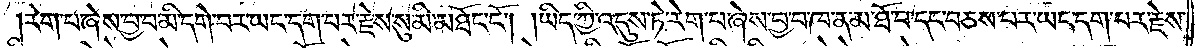རེག་པ་ཞེས་བྱ་བ་མི་དགེ་བར་ཡང་དག་པར་རྗེས་སུ་མི་མཐོང་ངོ༌། །ཡིད་ཀྱི་འདུས་ཏེ་རེག་པ་ཞེས་བྱ་བ་ཁ་ན་མ་ཐོ་བ་དང་བཅས་པར་ཡང་དག་པར་རྗེས་
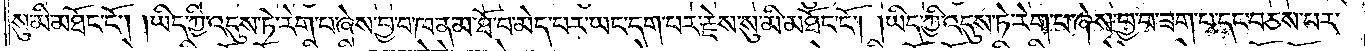སུ་མི་མཐོང་ངོ༌། །ཡིད་ཀྱི་འདུས་ཏེ་རེག་པ་ཞེས་བྱ་བ་ཁ་ན་མ་ཐོ་བ་མེད་པར་ཡང་དག་པར་རྗེས་སུ་མི་མཐོང་ངོ༌། །ཡིད་ཀྱི་འདུས་ཏེ་རེག་པ་ཞེས་བྱ་བ་ཟག་པ་དང་བཅས་པར་
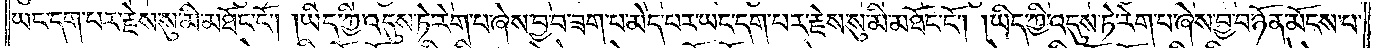ཡང་དག་པར་རྗེས་སུ་མི་མཐོང་ངོ༌། །ཡིད་ཀྱི་འདུས་ཏེ་རེག་པ་ཞེས་བྱ་བ་ཟག་པ་མེད་པར་ཡང་དག་པར་རྗེས་སུ་མི་མཐོང་ངོ༌། །ཡིད་ཀྱི་འདུས་ཏེ་རེག་པ་ཞེས་བྱ་བ་ཉོན་མོངས་པ་
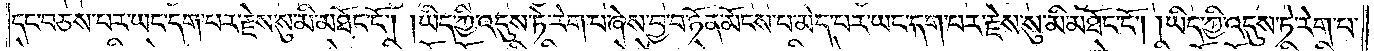དང་བཅས་པར་ཡང་དག་པར་རྗེས་སུ་མི་མཐོང་ངོ༌། །ཡིད་ཀྱི་འདུས་ཏེ་རེག་པ་ཞེས་བྱ་བ་ཉོན་མོངས་པ་མེད་པར་ཡང་དག་པར་རྗེས་སུ་མི་མཐོང་ངོ༌། །ཡིད་ཀྱི་འདུས་ཏེ་རེག་པ་
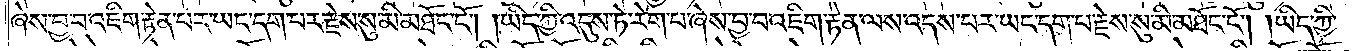ཞེས་བྱ་བ་འཇིག་རྟེན་པར་ཡང་དག་པར་རྗེས་སུ་མི་མཐོང་ངོ༌། །ཡིད་ཀྱི་འདུས་ཏེ་རེག་པ་ཞེས་བྱ་བ་འཇིག་རྟེན་ལས་འདས་པར་ཡང་དག་པ་རྗེས་སུ་མི་མཐོང་ངོ༌། །ཡིད་ཀྱི་
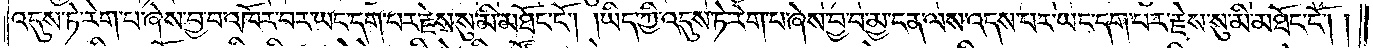འདུས་ཏེ་རེག་པ་ཞེས་བྱ་བ་འཁོར་བར་ཡང་དག་པར་རྗེས་སུ་མི་མཐོང་ངོ༌། །ཡིད་ཀྱི་འདུས་ཏེ་རེག་པ་ཞེས་བྱ་བ་མྱ་ངན་ལས་འདས་པར་ཡང་དག་པར་རྗེས་སུ་མི་མཐོང་ངོ༌། །
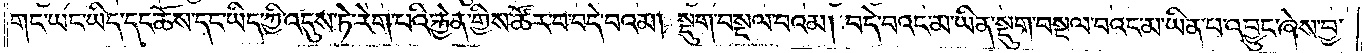གང་ཡང་ཡིད་དང་ཆོས་དང་ཡིད་ཀྱི་འདུས་ཏེ་རེག་པའི་རྐྱེན་གྱིས་ཚོར་བ་བདེ་བའམ། སྡུག་བསྔལ་བའམ། བདེ་བའང་མ་ཡིན་སྡུག་བསྔལ་བའང་མ་ཡིན་པ་འབྱུང་ཞེས་བྱ་
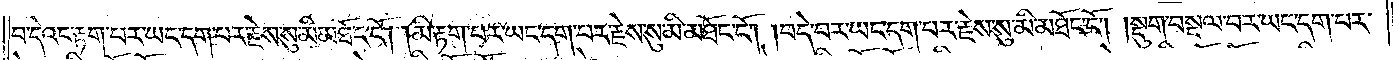བ་དེའང་རྟག་པར་ཡང་དག་པར་རྗེས་སུ་མི་མཐོང་ངོ༌། །མི་རྟག་པར་ཡང་དག་པར་རྗེས་སུ་མི་མཐོང་ངོ༌། །བདེ་བར་ཡང་དག་པར་རྗེས་སུ་མི་མཐོང་ངོ༌། །སྡུག་བསྔལ་བར་ཡང་དག་པར་
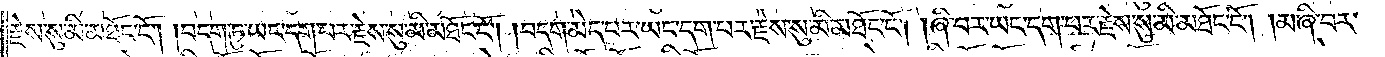རྗེས་སུ་མི་མཐོང་ངོ༌། །བདག་ཏུ་ཡང་དག་པར་རྗེས་སུ་མི་མཐོང་ངོ༌། །བདག་མེད་པར་ཡང་དག་པར་རྗེས་སུ་མི་མཐོང་ངོ༌། །ཞི་བར་ཡང་དག་པར་རྗེས་སུ་མི་མཐོང་ངོ༌། །མ་ཞི་བར་
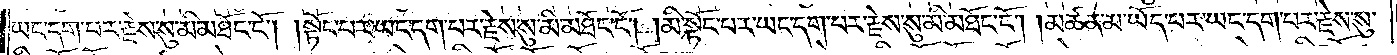ཡང་དག་པར་རྗེས་སུ་མི་མཐོང་ངོ༌། །སྟོང་པར་ཡང་དག་པར་རྗེས་སུ་མི་མཐོང་ངོ༌། །མི་སྟོང་པར་ཡང་དག་པར་རྗེས་སུ་མི་མཐོང་ངོ༌། །མཚན་མ་ཡོད་པར་ཡང་དག་པར་རྗེས་སུ་
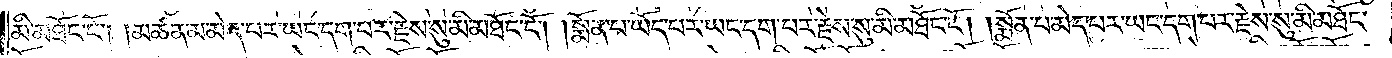མི་མཐོང་ངོ༌། །མཚན་མ་མེད་པར་ཡང་དག་པར་རྗེས་སུ་མི་མཐོང་ངོ༌། །སྨོན་པ་ཡོད་པར་ཡང་དག་པར་རྗེས་སུ་མི་མཐོང་ངོ༌། །སྨོན་པ་མེད་པར་ཡང་དག་པར་རྗེས་སུ་མི་མཐོང་
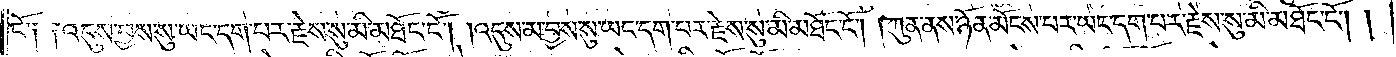ངོ༑ ༑འདུས་བྱས་སུ་ཡང་དག་པར་རྗེས་སུ་མི་མཐོང་ངོ༌། །འདུས་མ་བྱས་སུ་ཡང་དག་པར་རྗེས་སུ་མི་མཐོང་ངོ༌། །ཀུན་ནས་ཉོན་མོངས་པར་ཡང་དག་པར་རྗེས་སུ་མི་མཐོང་ངོ༌། །
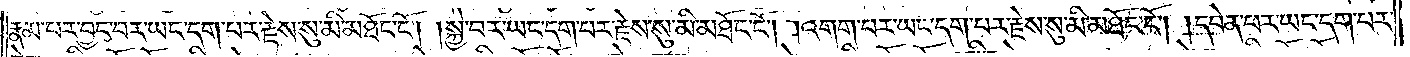རྣམ་པར་བྱང་བར་ཡང་དག་པར་རྗེས་སུ་མི་མཐོང་ངོ༌། །སྐྱེ་བར་ཡང་དག་པར་རྗེས་སུ་མི་མཐོང་ངོ༌། །འགག་པར་ཡང་དག་པར་རྗེས་སུ་མི་མཐོང་ངོ༌། །དབེན་པར་ཡང་དག་པར་
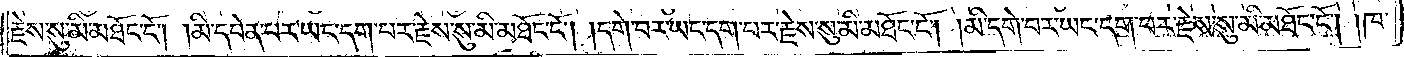རྗེས་སུ་མི་མཐོང་ངོ༌། །མི་དབེན་པར་ཡང་དག་པར་རྗེས་སུ་མི་མཐོང་ངོ༌། །དགེ་བར་ཡང་དག་པར་རྗེས་སུ་མི་མཐོང་ངོ༌། །མི་དགེ་བར་ཡང་དག་པར་རྗེས་སུ་མི་མཐོང་ངོ༌། །ཁ་
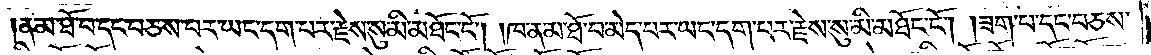ན་མ་ཐོ་བ་དང་བཅས་པར་ཡང་དག་པར་རྗེས་སུ་མི་མཐོང་ངོ༌། །ཁ་ན་མ་ཐོ་བ་མེད་པར་ཡང་དག་པར་རྗེས་སུ་མི་མཐོང་ངོ༌། །ཟག་པ་དང་བཅས་
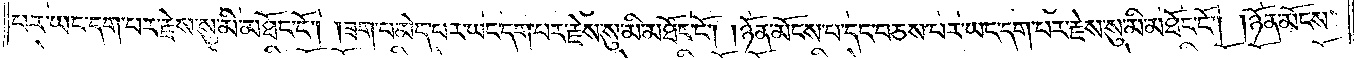པར་ཡང་དག་པར་རྗེས་སུ་མི་མཐོང་ངོ༌། །ཟག་པ་མེད་པར་ཡང་དག་པར་རྗེས་སུ་མི་མཐོང་ངོ༌། །ཉོན་མོངས་པ་དང་བཅས་པར་ཡང་དག་པར་རྗེས་སུ་མི་མཐོང་ངོ༌། །ཉོན་མོངས་
